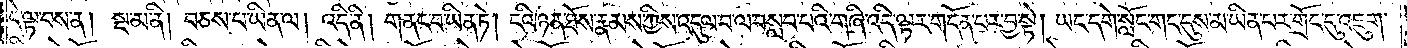དེ་ལྟ་བས་ན། སྔ་མ་ནི། བཅས་པ་ཡིན་ལ། འདི་ནི། གནང་བ་ཡིན་ཏེ། ངའི་ཉན་ཐོས་རྣམས་ཀྱིས་འདུལ་བ་ལ་བསླབ་པའི་གཞི་འདི་ལྟར་གདོན་པར་བྱ་སྟེ། ཡང་དགེ་སློང་གང་དུས་མ་ཡིན་པར་གྲོང་དུ་འཇུག་
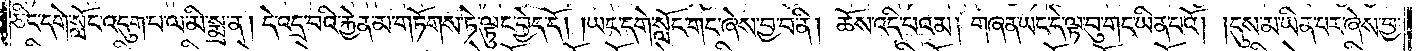ཅིང་དགེ་སློང་འདུག་པ་ལ་མི་སྨྲ་ན། དེ་འདྲ་བའི་རྐྱེན་མ་གཏོགས་ཏེ་ལྟུང་བྱེད་དོ། །ཡང་དགེ་སློང་གང་ཞེས་བྱ་བ་ནི། ཆོས་འདི་པའམ། གཞན་ཡང་དེ་ལྟ་བུ་གང་ཡིན་པའོ། །དུས་མ་ཡིན་པར་ཞེས་བྱ་
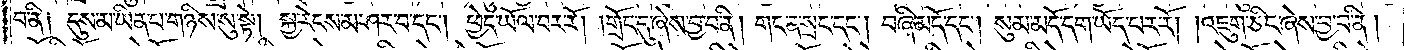བ་ནི༑ དུས་མ་ཡིན་པ་གཉིས་སུ་སྟེ། སྐྱ་རེངས་མ་ཤར་བ་དང༌། ཕྱེད་ཡོལ་བར་རོ། །གྲོང་དུ་ཞེས་བྱ་བ་ནི། གང་ན་སྲང་དང༌། བཞི་མདོ་དང༌། སུམ་མདོ་དག་ཡོད་པར་རོ། །འཇུག་ཅིང་ཞེས་བྱ་བ་ནི།
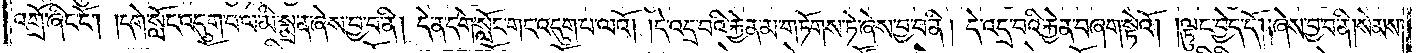འགྲོ་ཞིང་ངོ༌། །དགེ་སློང་འདུག་པ་ལ་མི་སྨྲ་ན་ཞེས་བྱ་བ་ནི། དེ་ན་དགེ་སློང་གང་འདུག་པ་ལའོ། །དེ་འདྲ་བའི་རྐྱེན་མ་གཏོགས་ཏེ་ཞེས་བྱ་བ་ནི། དེ་འདྲ་བའི་རྐྱེན་བཞག་སྟེའོ། །ལྟུང་བྱེད་དོ། །ཞེས་བྱ་བ་ནི། སེམས་
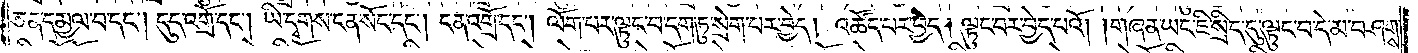ཅན་དམྱལ་བ་དང༌། དུད་འགྲོ་དང༌། ཡི་དྭགས་ངན་སོང་དང༌། ངན་འགྲོ་དང༌། ལོག་པར་ལྟུང་བ་དག་ཏུ་སྲེག་པར་བྱེད། འཚོད་པར་བྱེད། ལྟུང་བར་བྱེད་པའོ། །གཞན་ཡང་ཇི་སྲིད་དུ་ལྟུང་བ་དེ་མ་བཤགས་
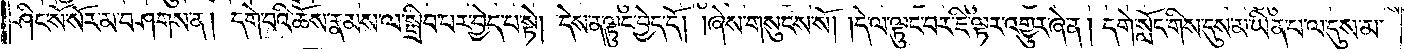ཤིང་སོ་སོར་མ་བཤགས་ན། དགེ་བའི་ཆོས་རྣམས་ལ་སྒྲིབ་པར་བྱེད་པ་སྟེ། དེས་ན་ལྟུང་བྱེད་དོ། །ཞེས་གསུངས་སོ། །དེ་ལ་ལྟུང་བར་ཇི་ལྟར་འགྱུར་ཞེ་ན། དགེ་སློང་གིས་དུས་མ་ཡིན་པ་ལ་དུས་མ་
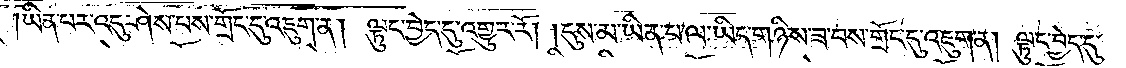ཡིན་པར་འདུ་ཤེས་པས་གྲོང་དུ་འཇུག་ན། ལྟུང་བྱེད་དུ་འགྱུར་རོ། །དུས་མ་ཡིན་པ་ལ་ཡིད་གཉིས་ཟ་བས་གྲོང་དུ་འཇུག་ན། ལྟུང་བྱེད་དུ་
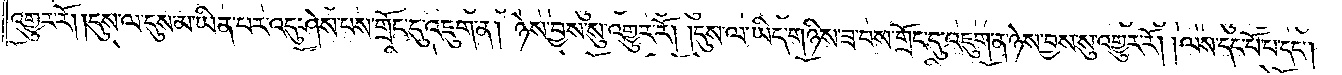འགྱུར་རོ། །དུས་ལ་དུས་མ་ཡིན་པར་འདུ་ཤེས་པས་གྲོང་དུ་འཇུག་ན། ཉེས་བྱས་སུ་འགྱུར་རོ། །དུས་ལ་ཡིད་གཉིས་ཟ་བས་གྲོང་དུ་འཇུག་ན་ཉེས་བྱས་སུ་འགྱུར་རོ། །ལས་དང་པོ་པ་དང༌།
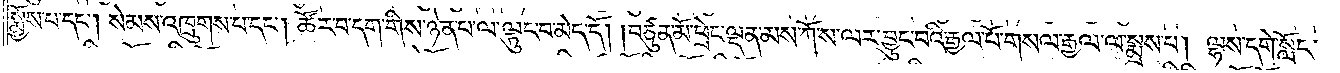སྨྱོས་པ་དང༌། སེམས་འཁྲུགས་པ་དང༌། ཚོར་བ་དག་གིས་ཉེན་པ་ལ་ལྟུང་བ་མེད་དོ། །བཙུན་མོ་ཕྲེང་ལྡན་མས་ཀོ་ས་ལར་བྱུང་བའི་རྒྱལ་པོ་གསལ་རྒྱལ་ལ་སྨྲས་པ། ལྷས་དགེ་སློང་
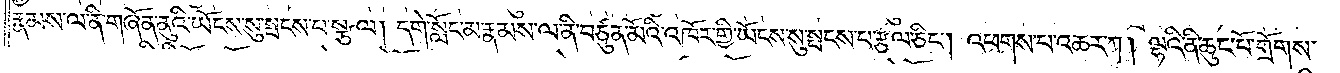རྣམས་ལ་ནི་གཞོན་ནུའི་ཡོངས་སུ་སྤངས་པ་སྩལ། དགེ་སློང་མ་རྣམས་ལ་ནི་བཙུན་མོའི་འཁོར་གྱི་ཡོངས་སུ་སྤངས་པ་རྩལ་ཅིང༌། འཕགས་པ་འཆར་ཀ། ལྷའི་ནི་ཆུང་པོ་གྲོགས་
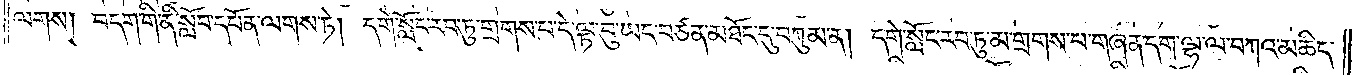ལགས། བདག་གི་ནི་སློབ་དཔོན་ལགས་ཏེ། དགེ་སློང་རབ་ཏུ་གྲགས་པ་དེ་ལྟ་བུ་ཡང་བཙན་མཐོང་དུ་བཀུམ་ན། དགེ་སློང་རབ་ཏུ་མ་གྲགས་པ་གཞན་དག་ལྷ་ལ་བཀའ་མཆིད་
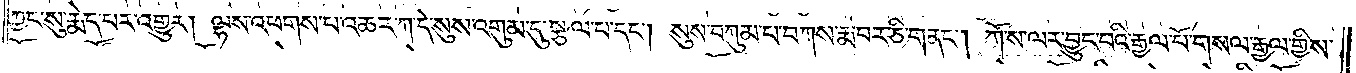ཀྱང་སུ་རྨེད་པར་འགྱུར། ལྷས་འཕགས་པ་འཆར་ཀ་དེ་སུས་འགུམ་དུ་སྩལ་པ་དང༌། སུས་བཀུམ་པ་བཀས་རྨ་བར་ཅི་གནང༌། ཀོ་ས་ལར་བྱུང་བའི་རྒྱལ་པོ་གསལ་རྒྱལ་གྱིས་
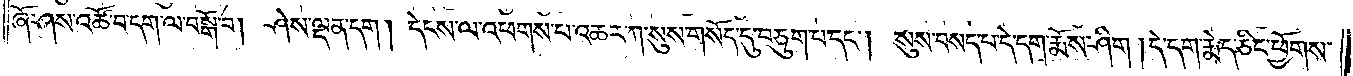ཞོ་ཤས་འཚོ་བ་དག་ལ་བསྒོ་བ། ཤེས་ལྡན་དག། དེངས་ལ་འཕགས་པ་འཆར་ཀ་སུས་གསོད་དུ་བཅུག་པ་དང༌། སུས་བསད་པ་དེ་དག་རྨོས་ཤིག །དེ་དག་རྨེད་ཅིང་ཕྱོགས་
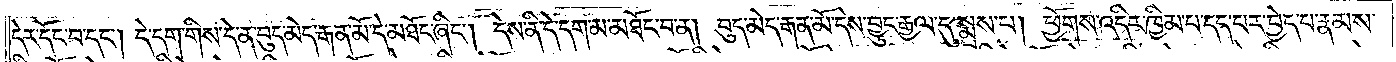དེར་དོང་བ་དང༌། དེ་དག་གིས་དེ་ན་བུད་མེད་རྒན་མོ་དེ་མཐོང་ཞིང༌། དེས་ནི་དེ་དག་མ་མཐོང་བ་ན། བུད་མེད་རྒན་མོ་དེས་བྱུང་རྒྱལ་དུ་སྨྲས་པ། ཕྱོགས་འདིར་ཁྱིམ་པ་དད་པར་བྱེད་པ་རྣམས་
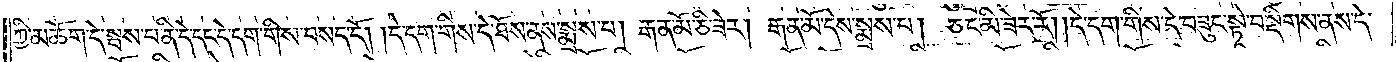ཀྱི་མཆོག་དེ་སྦས་པ་ནི་དེ་དང་དེ་དག་གིས་བསད་དོ། །དེ་དག་གིས་དེ་ཐོས་ནས་སྨྲས་པ། རྒན་མོ་ཅི་ཟེར། རྒན་མོ་དེས་སྨྲས་པ། ཅང་མི་ཟེར་རོ། །དེ་དག་གིས་དེ་བཟུང་སྟེ་བསྡིགས་ནས་དེ་
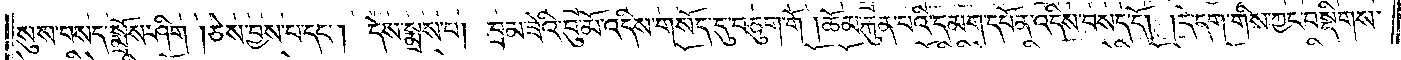སུས་བསད་སྨྲོས་ཤིག །ཅེས་བྱས་པ་དང༌། དེས་སྨྲས་པ། བྲམ་ཟེའི་བུ་མོ་འདིས་གསོད་དུ་བཅུག་གོ །ཆོམ་རྐུན་པའི་དམག་དཔོན་འདིས་བསད་དོ། །དེ་དག་གིས་ཀྱང་བསྡིགས་
